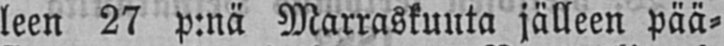leen 27 p:nä Marraskuuta jälleen pää-
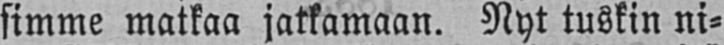simme matkaa jatkamaan. Nyt tuskin ni-
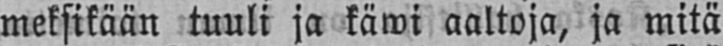meksikään tuuli ja käwi aaltoja, ja mitä
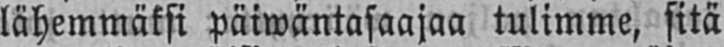lähemmäksi päiwäntasaajaa tulimme, sitä
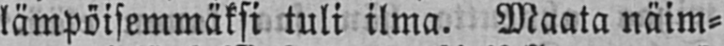lämpöisemmäksi tuli ilma. Maata näim-
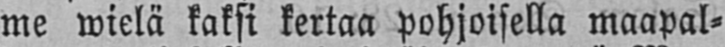me wielä kaksi kertaa pohjoisella maapal-
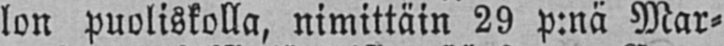lon puoliskolla, nimittäin 29 p:nä Mar-
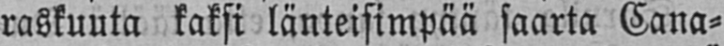raskuuta kaksi länteisimpää saarta Cana-
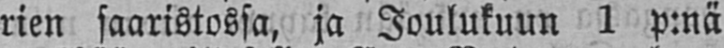rien saaristossa, ja Joulukuun 1 p:nä
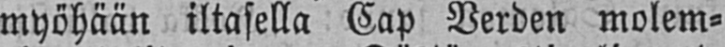myöhään iltasella Cap Verden molem-
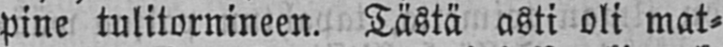pine tulitornineen. Tästä asti oli mat-
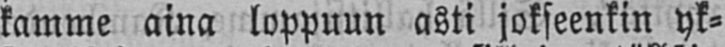kamme aina loppuun asti jokseenkin yk-
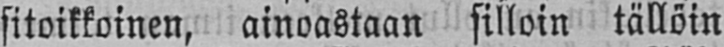sitoikkoinen, ainoastaan silloin tällöin
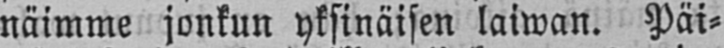näimme jonkun yksinäisen laiwan. Pä-
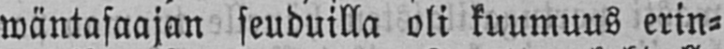wäntasaajan seuduilla oli kuumuus erin-
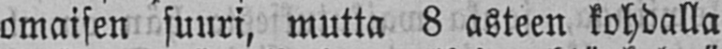omaisen suuri, mutta 8 asteen kohdalla
